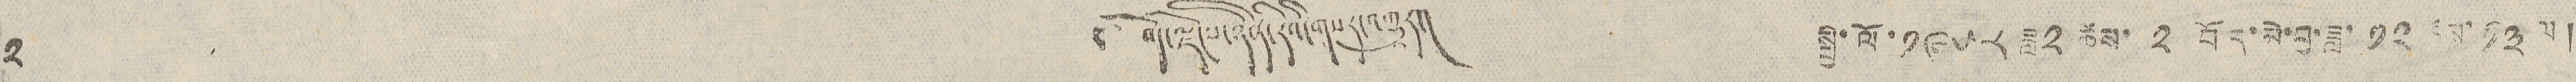༢ ༄ བོད་ལྗོངས་ཉིན་རེའི་གསར་འགྱུར། སྤྱི་ལོ་ ༡༩༥༨ ཟླ༢ ཚེས་ ༢ བོད་མེ་བྱ་ཟླ་ ༡༢ ཚེས་ ༡༣ ལ།
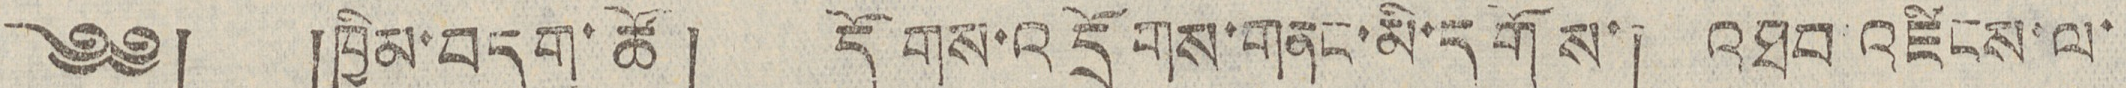༄༅། །ཁྱིམ་བདག་ཚེ་ ། དོགས་འདྲོགས་གནང་མི་དགོས་། འཐབ་འཛིངས་ལ་
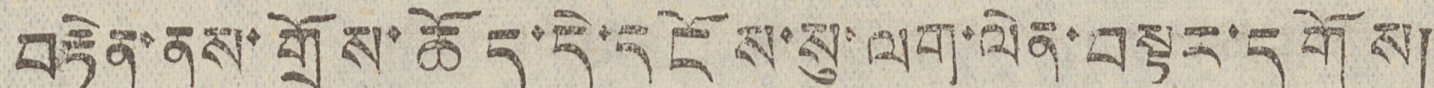བརྟེན་ནས་གྲོས་ཆོད་དེ་དངོས་སུ་ལག་ལེན་བསྟར་དགོས།
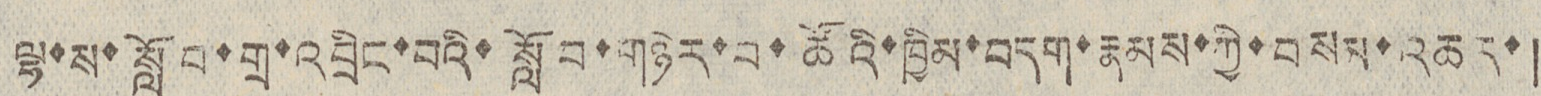ལྷ་ས་སློབ་གྲྭ་འབྲིང་བའི་སློབ་གཉེར་བ་ཚོའི་ཁྱིམ་བདག་རྣམས་ཀྱི་བསམ་འཆར་།
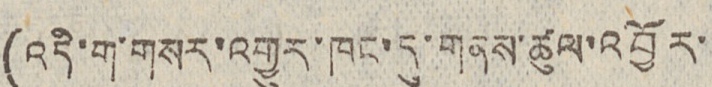(འདི་ག་གསར་འགྱུར་ཁང་དུ་གནས་ཚུལ་འབྱོར་
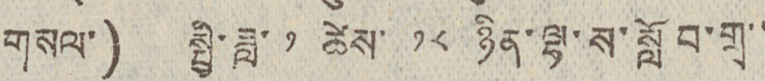གསལ་) སྤྱི་ཟླ་ ༡ ཚེས་ ༡༨ ཉིན་ལྷ་ས་སློབ་གྲྭ་་
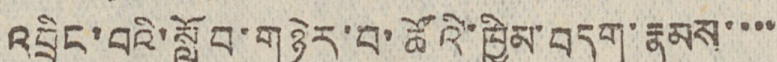འབྲིང་བའི་སློབ་གཉེར་བ་ཚོའི་ཁྱིམ་བདག་རྣམས་་་་
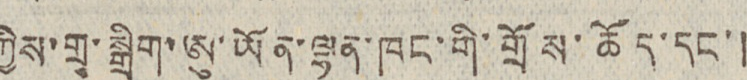ཀྱིས་གྲྭ་སྒྲིག་ཨུ་ཡོན་ལྷན་ཁང་གི་གྲོས་ཆོད་དང་།
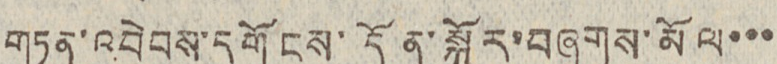གཏན་འབེབས་དགོངས་དོན་སྐོར་བཞུགས་མོལ་་་
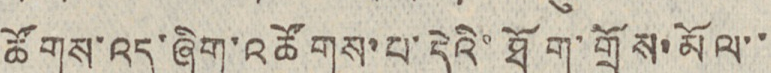ཚོགས་འདུ་ཞིག་འཚོགས་པ་དེའི་ཐོག་གྲོས་མོལ་་
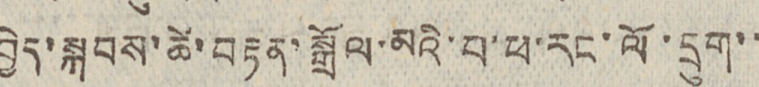བྱེད་སྐབས་ཚེ་བརྟན་སྒྲོལ་མའི་པ་ཕ་རང་ལོ་དྲུག་་
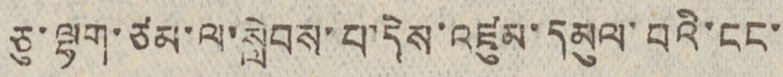ཅུ་ལྷག་ཙམ་ལ་སླེབས་པ་དེས་འཛུམ་དམུལ་བའི་ངང་
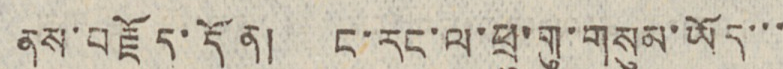ནས་བརྗོད་དོན། ང་རང་ལ་ཕྲུ་གུ་གསུམ་ཡོད་་་
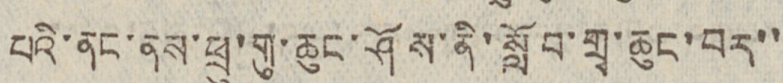པའི་ནང་ནས་ཕྲུ་གུ་ཆུང་ཤོས་ནི་སློབ་གྲྭ་ཆུང་བར་་
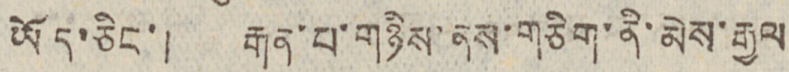ཡོད་ཅིང་། རྒན་པ་གཉིས་ནས་གཅིག་ནི་མེས་རྒྱལ
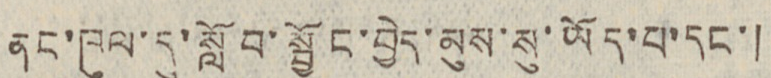ནང་ཁུལ་དུ་སློབ་སྦྱོང་བྱེད་མུས་སུ་ཡོད་པ་དང་།
